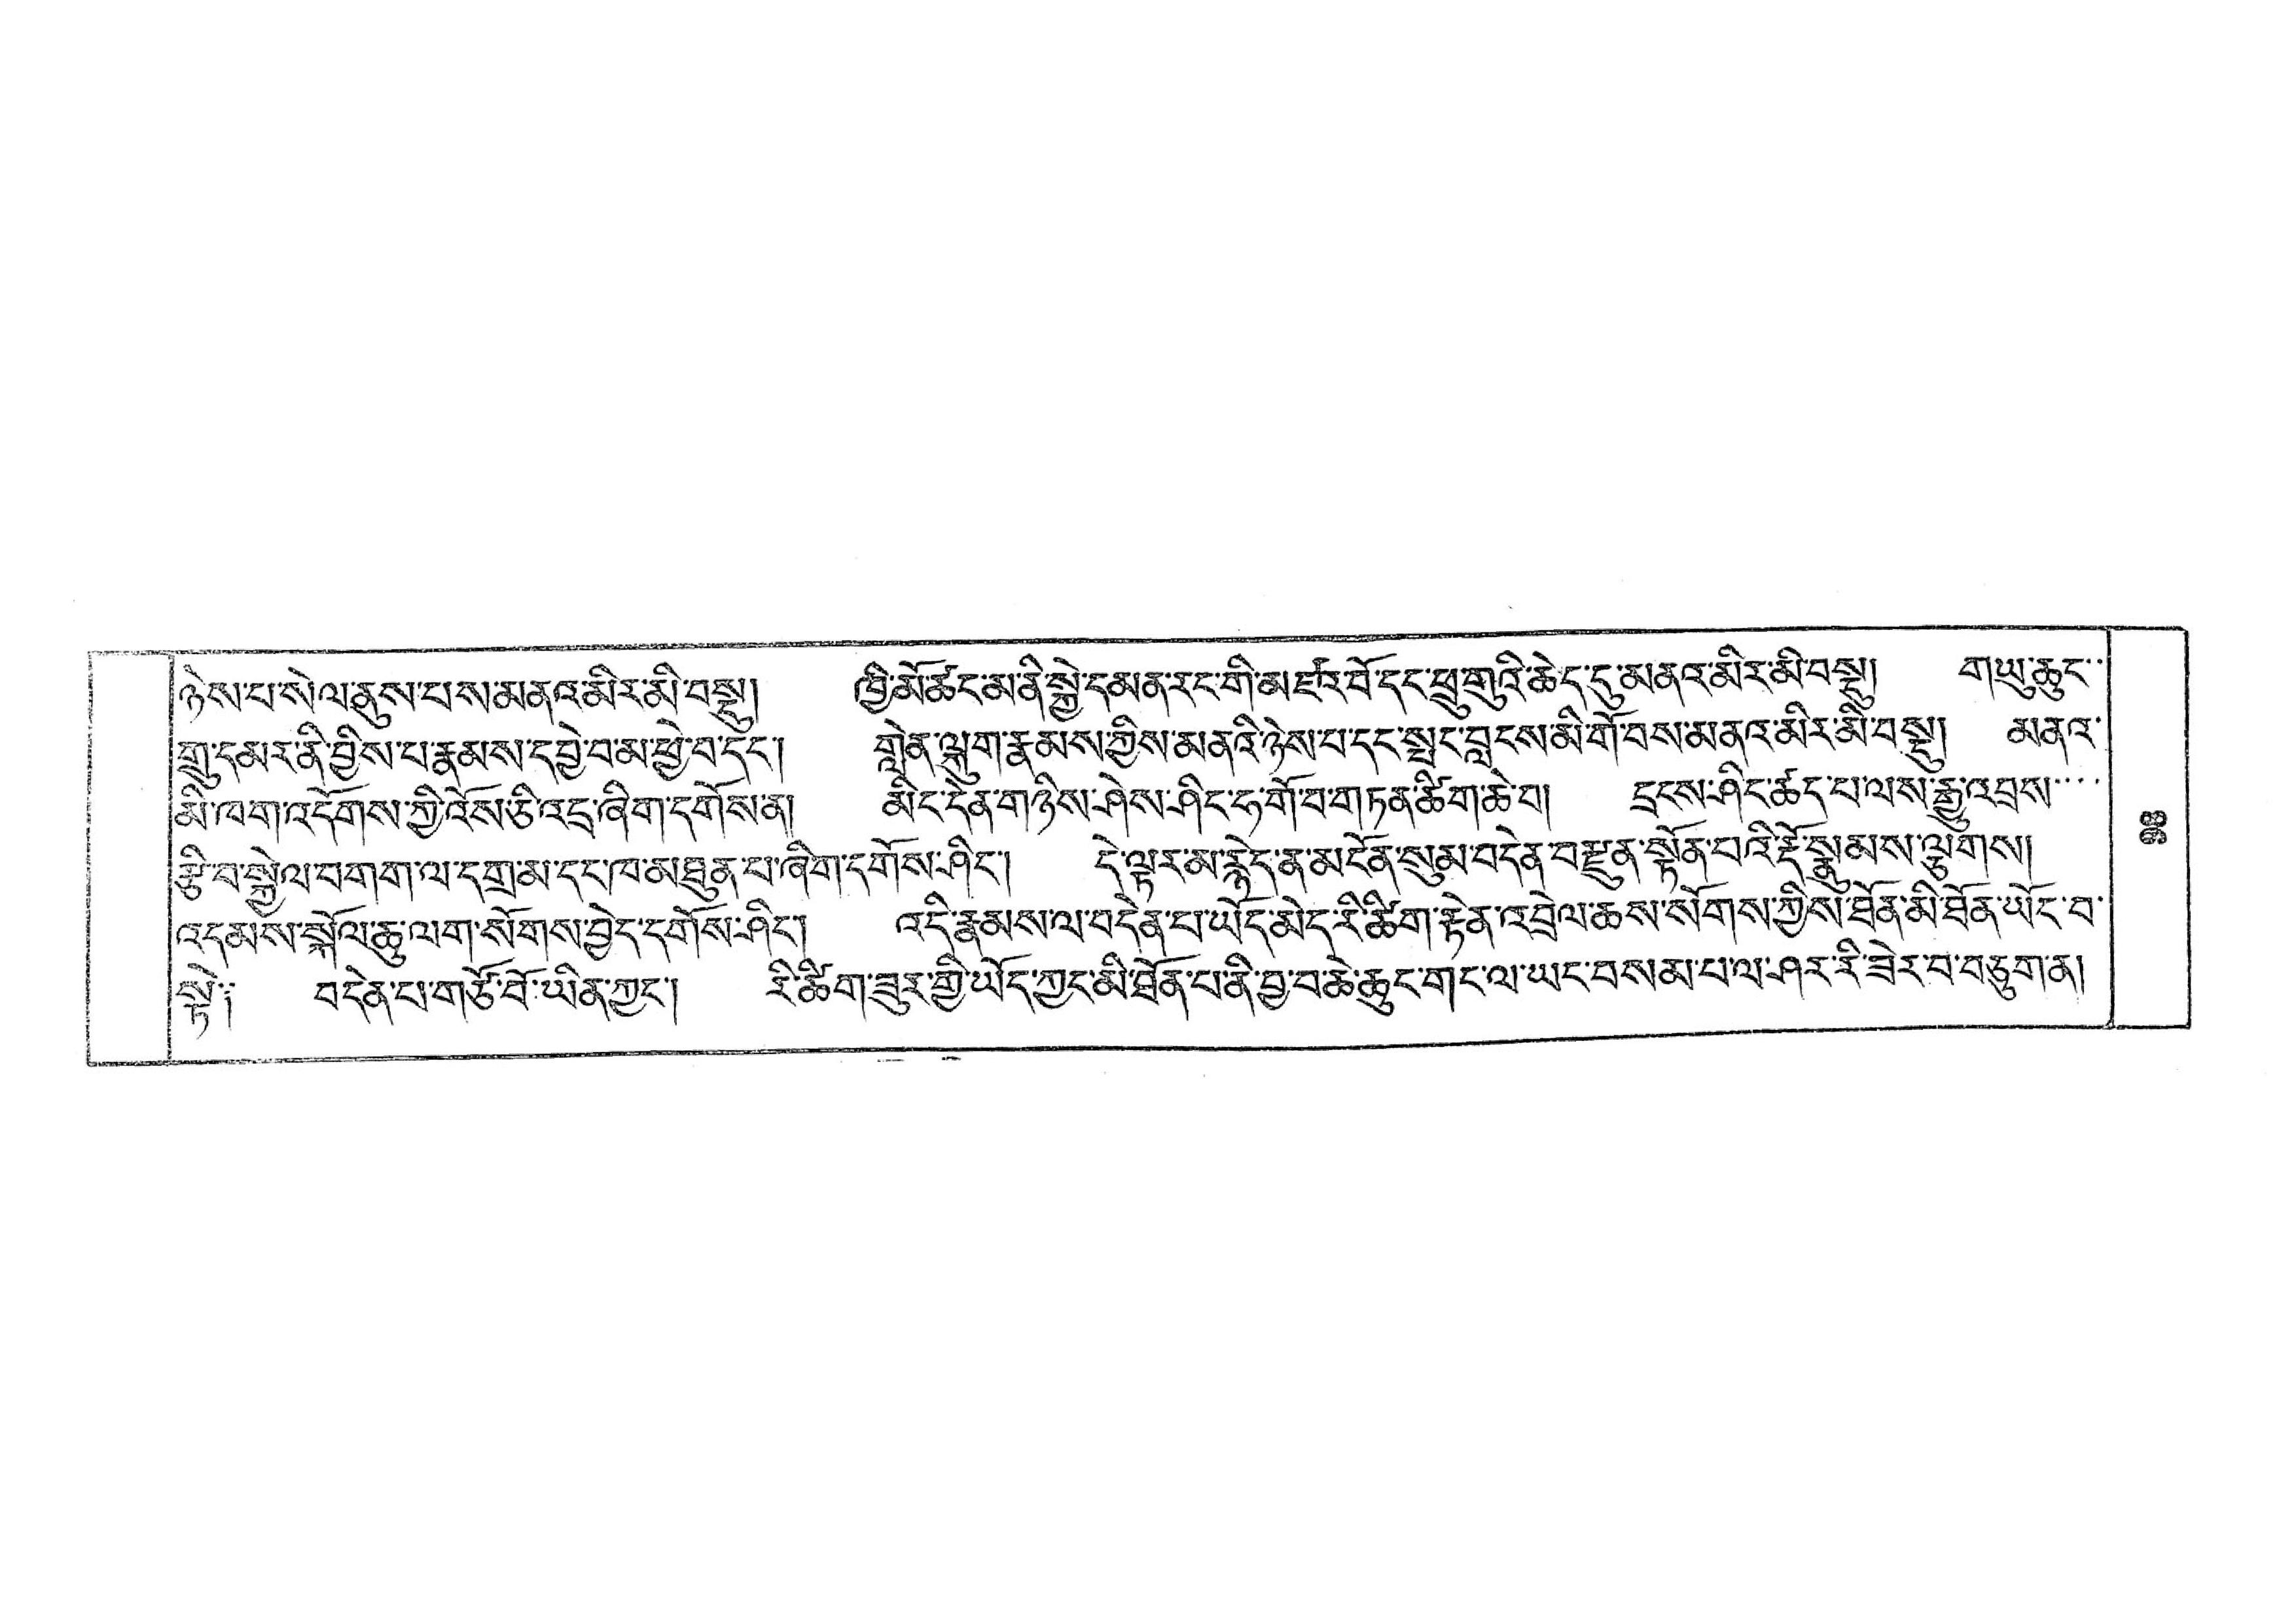ཉེས་པ་སེལ་ནུས་པས་མནའ་མི་བསྡུ། ཁྱི་མོ་ཚང་མ་ནི་སྐྱེ་དམན་རང་གི་མཛའ་བོ་དང་ཕྲུ་གུའི་ཆེད་དུ་མནའ་མིར་མི་བསྡུ། གཡུ་ཆུང་་
གྲུ་དམར་ནི་བྱིས་པ་རྣམས་དབྱེ་བ་མ་ཕྱེ་བ་དང་། གླེན་ལྐུག་རྣམས་ཀྱིས་མནའི་ཉེས་པ་དང་སྤང་བླངས་མི་གོ་བས་མནའ་མིར་མི་བསྡུ། མནའ་
མི་ཁག་འདོགས་ཀྱི་འོས་ཅི་འདྲ་ཞིག་དགོས་ན། མིང་དེན་གཉིས་ཤེས་ཤིང་ཧ་གོ་བ་གཏན་ཚིག་ཆེ་བ། དྲངས་ཤིང་ཚད་པ་ལས་རྒྱུ་འབྲས་་་་
རྩི་བ་སྐྱེལ་བགག་ལ་དགྲ་མ་དང་ཁ་མཐུན་པ་ཞིག་དགོས་ཤིང་། དེ་ལྟར་མ་རྙེད་ན་མངོན་སུམ་བདེན་བརྫུན་སྟོན་པའི་རྡོ་སྣུམས་ལྕགས།
འདམས་སྐོལ་ཆུ་ལག་སོགས་བྱེད་དགོས་ཤིང་། འདི་རྣམས་ལ་བདེན་པ་ཡོད་མེད་རི་ཚིག་རྟེན་འབྲེལ་ཆས་སོགས་ཀྱིས་ཐོན་མི་ཐོན་ཡོང་བ་
སྟེ༑ བདེན་པ་གཙོ་བོ་ཡིན་ཀྱང་། རི་ཚིག་ཟུར་གྱི་ཡོད་ཀྱང་མི་ཐོན་པ་ནི་བྱ་བ་ཆེ་ཆུང་གང་ལ་ཡང་བསམ་པ་ལ་ཤར་རི་ཟེར་བ་བཅུག་ན།
